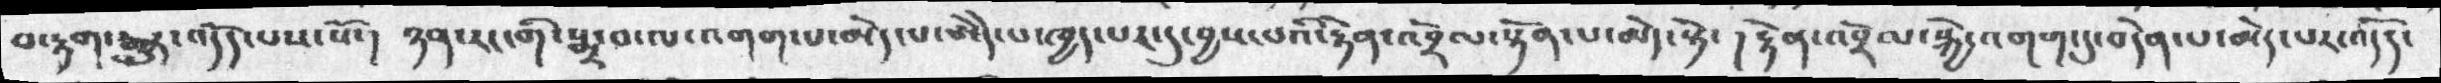བ་རྟག་རྒྱུར་འདོད་པས་སོ་།   ཉན་རང་གི་སྨྲ་བ་ལ་འགག་པ་མེད་པ་ཨེདེ་པ་ཁྱད་པར་དུ་བྱས་པའི་རྟེན་འབྲེལ་སྟོན་པ་མེད་སྟེ་ ། རྟེན་འབྲེལ་སྐྱེ་འགག་དུ་བདེན་པ་མེད་༷པར་འདདོ་
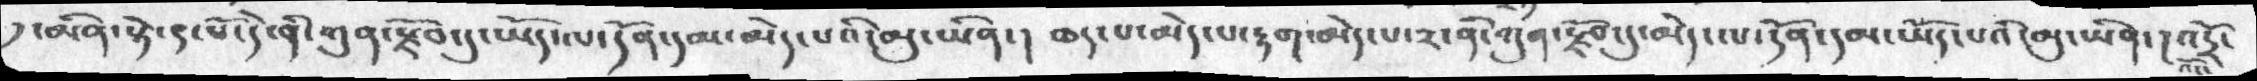དུ་མིན་སྟེ་དང་པོ་དེ་ནི་ཀུན་སྫོབ་དུ་ཡོད་ལ་དོན་དམ་མེད་པའི་མུ་ཡིན་།   ཆད་པ་མེད་པ་རྟག་མེད་པ་༢་ནི་ཀུན་སྫོབ་དུ་མེད་ལ་དོན་དམ་ཡོད་པའི་མུ་ཡིན་། འོད་འདྲོ་
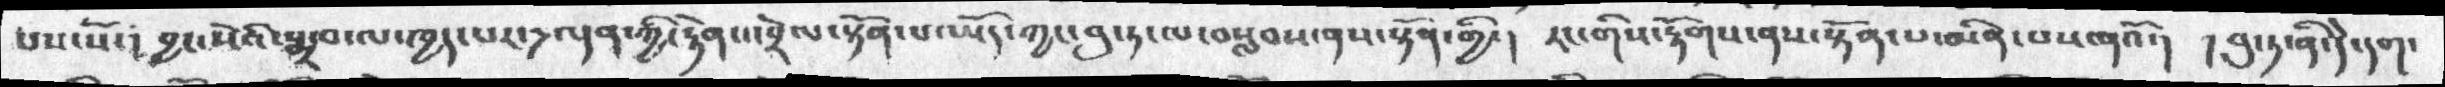པས་སོ་། བྱང་སེའི་སྨྲ་བ་ལ་ཁྱད་པར་ལྔ་ལྡན་ཀྱི་རྟེན་འབྲེལ་སྟོན་པ་ཡོད་ཀྱང་བུ་ཏ་ལ་བསླབས་ནས་སྟོན་གྱི་། རང་གིས་རྟོགས་ནས་སྟོན་པ་མིན་པས་ཞའོ་།  །བུ་ཏ་ནི་དེ་དག་
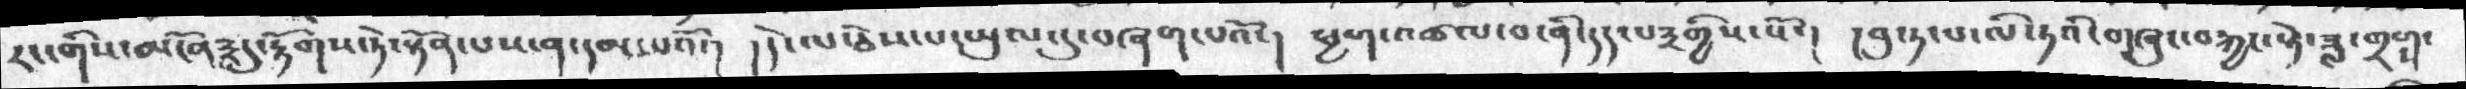རང་གིས་མངོན་༣དུ་རྟོགས་ཏེ་སྟོན་པས་ན་དམ་པའི་།   ། དེ་ལ་ཅེས་པ་ཡུལ་དུ་བཞག་པའོ་།   ཕྱག་འཚལ་བ་ནི་དད་པ༣གྱིས་སོ་།   དབུ་ཏ་པ་ལི་ཏའི་གཞུང་བརྐྱང་སྟེ་ཟླ་གྲགས་
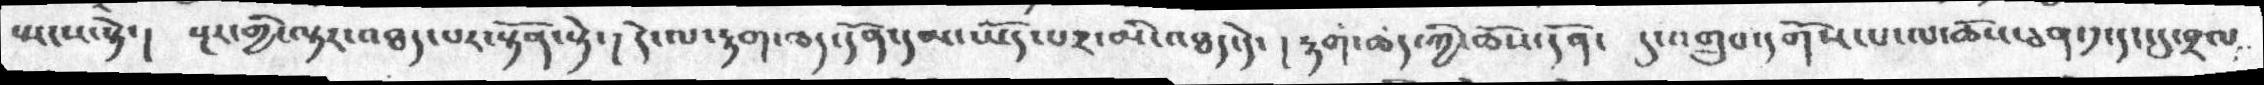སྤངས་སྟེ་། སྔར་གྱི་ལྟར་འཐད་པར་སྟོན་སྟེ་། དེ་ལ་རྟག་ཆད་དོན་དམ་ཡོད་པར་མི་འཐད་དེ་། །རྟག་ཆད་ཀྱི་ཆོས་དོན་ དུ་འགྲུབ་དགོས་པ་ལ་ཆོས་ཅན་༡་དང་དུ་བྲལ་
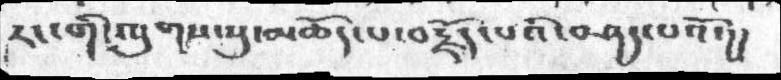རང་གི་ལུགས་སུ་མཆོད་པ་བརྗོད་པའི་བཤད་པའོ་།།
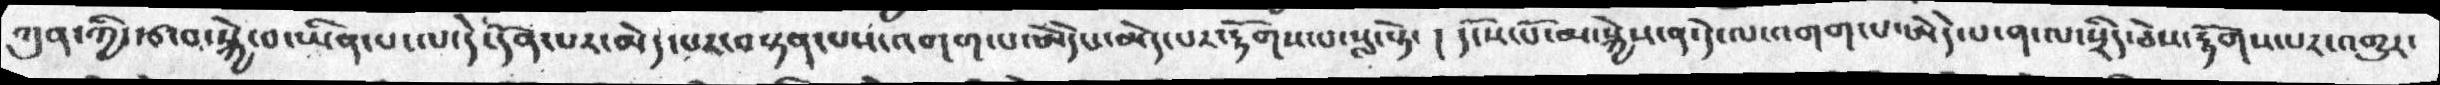ཀུན་ཀྱི་རྩ་བ་སྐྱེ་བ་ཡིན་པ་ལ་དེ་དོན་པར་མེད་པར་བསྟན་པས་འགག་པ་ཨེདེང་མེད་པར་རྟོགས་པ་སླང་སྟེ་ ། དངོས་པོ་མ་སྐྱེས་ན་དེ་ལ་འགག་ོ་ཨེདེ་པ་ན་ལ་སྲིད་ཅེས་རྟོགས་པར་འགྱུར་
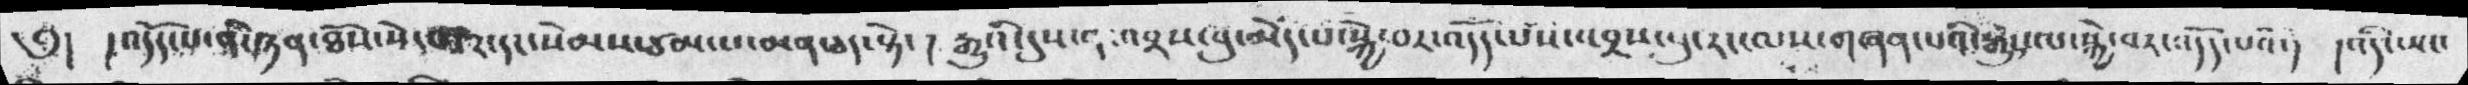༅།  །འདོད་པ་ནི་ཉན་ཐོས་སེདམ༢་དང་སེམས་ཙམ་པ་མན་ཅད་སྟེ་  །  རྒྱུའི་དུས་ན་འབྲས་བུ་མེད་པ་སྐྱེ་བར་འདོད་པས་འབྲས་བུ་རང་ལས་གཞན་པའི་རྒྱུར་ལ་སྐྱེ་བར་འདོད་པའི་།   །འདི་ཡང་
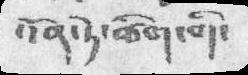འོན་ཏེ་ཚིག་གི་
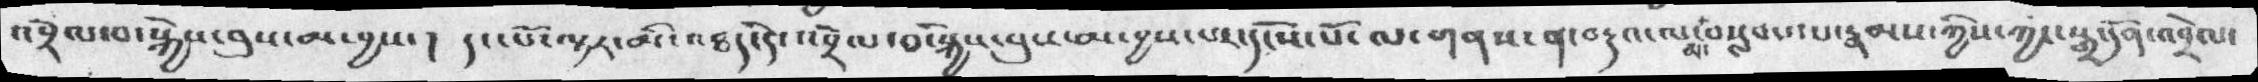འབྲེལ་བ་སྐྱེས་བུས་མ་བྱས་།   དང་པོ་ལྟར་མི་འཐད་དེ་འབྲེལ་བ་སྐྱེས་བུས་མ་བྱས་པར་དངོས་པོ་ལ་གནས་ན་བརྟའ་ལས་བསླབས་པ་རྣམས་ཀྱིས་ཀྱང་སྒྲ་དོན་འབྲེལ་
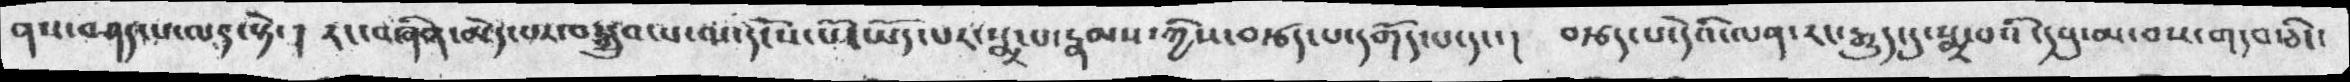ནས་བཤད་པ་ལར་སྟེ་།  རང་བཞིན་མེདཔར་བསྒྲུབ་པ་ལ་དངོས་པོར་ཡོད་པར་སྨྲ་པ་རྣམས་ཀྱིས་བརྩད་པ་དགོད་པ་དང་།  བརྩད་པ་དེའི་ལན་རང་རྒྱུད་དུ་སྨྲ་པའི་དབུ་མ་བས་གདབ་ཅིང་
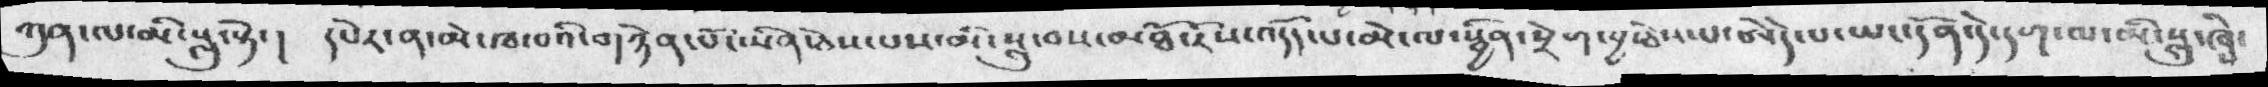ཀུུན་ལ་མི་སླུ་སྟེ་།   དཔེར་ན་མེ་ཁ་བའི་གཉེན་པོ་ཡིན་ཅེས་པས་མི་སླུ་བས་མཐོ་རིས་འདོད་པ་མེ་ལ་སྦྱིན་སྲེག་བྱ་ཅེས་པ་ཨེདེ་པ་ཡང་དོན་དག་ལ་མི་སླུ་ཞེས་
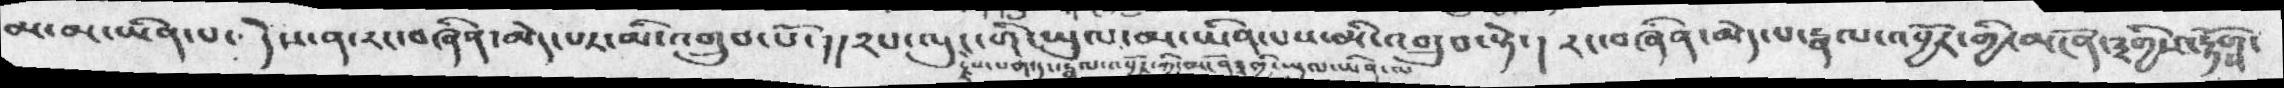མ་མ་ཡིན་པ་དེས་མ་རང་བཞིན་མེད་པར་མི་འགྲུབ་པོ་།།རང་ལུང་གི་ཡུལ་མ་ཡིན་པས་མི་འགྲུབ་སྟེ་།   རང་བཞིན་མེད་པ་རྣམ་འབྱོར་གྱི་མངོན་ཟ་གྱིས་རྟོགས་
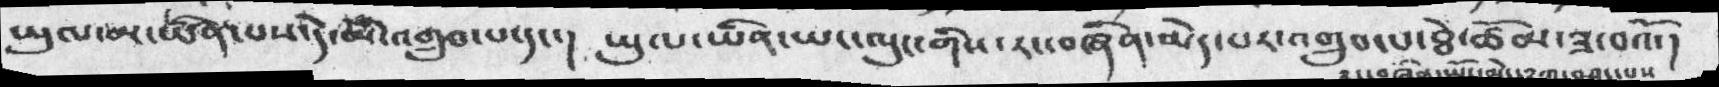ཡུལ་མ་ཡིན་པས་དེ་མི་འགྲུབ་པ་དང་  ཡུལ་ཡིན་ཡང་ལུང་གིས་རང་བཞིན་མེད་པར་འགྲུབ་པ་ཐེ་ཚོམ་ཟ་བའོ་།
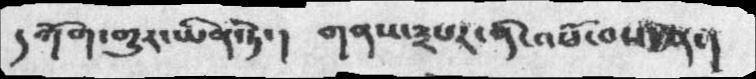དཀོག་གྱུར་ཡིན་ཏེ་།  གནས་༣པར་ནི་འཕོ་བས་ན་།
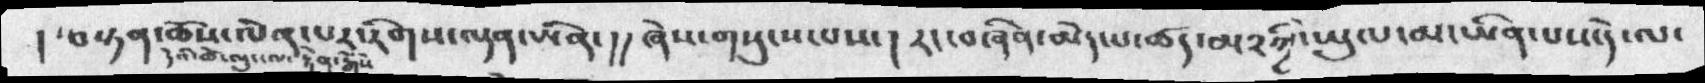།  བསྟན་ཆོས་ལེན་པར་རིགས་ལྡན་ཡིན་།།  ཞེས་གསུངས་པས་།   རང་བཞིན་མེད་པ་ཚད་མ་༢་གྱི་ཡུལ་མ་ཡིན་པས་དེ་ལ་
